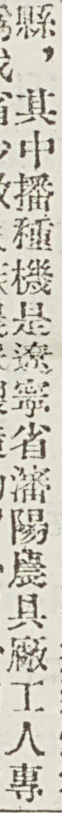縣，其中播種機是遼寧省瀋陽農具場工人專
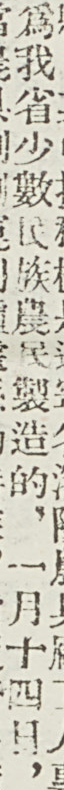爲我省少數民族農民製造的，一月十四日，
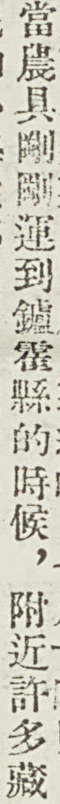當農具剛剛運到爐霍縣的時候，附近許多藏
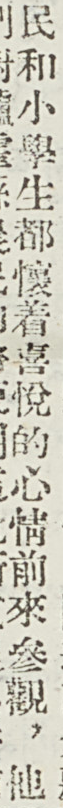民和小學生豆懷着喜悅的心情前來參觀，他
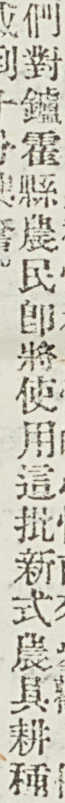們對爐霍縣農民卽將使用這批新式農具耕種
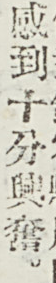感到十分興奮。
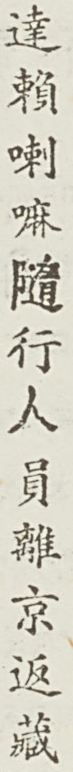達賴喇嘛隨行人員離京返藏
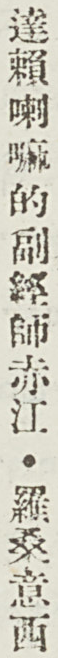達賴喇嘛的副經師赤江・羅桑意西
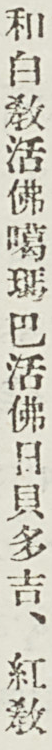和白敎活佛噶瑪巴活佛日貝多吉、紅敎
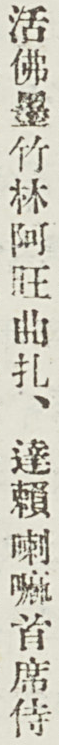活佛墨竹林阿旺曲扎、達賴喇嘛首席侍
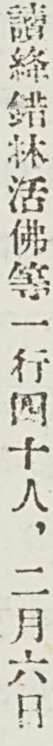讀絳錯林活佛等一行四十八人，二月六日
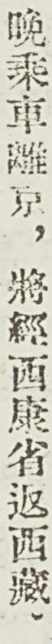晚乘車離京，將經西康省返西藏。
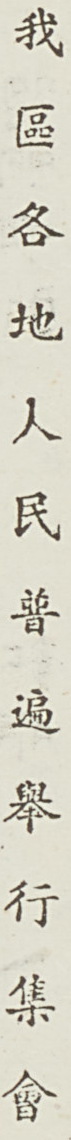我 區 各 地 人 民 普 遍 舉 行 集 會
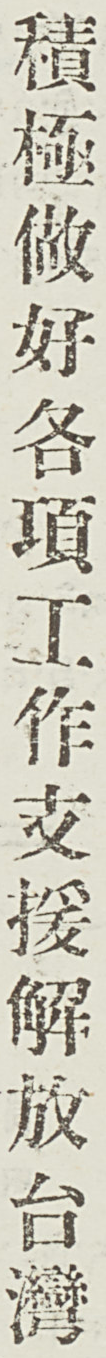積極做好各項工作支援解放台灣
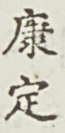康定
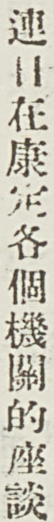連日在康定各個機關的座談
